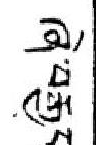ཞེ་བརྒྱད་
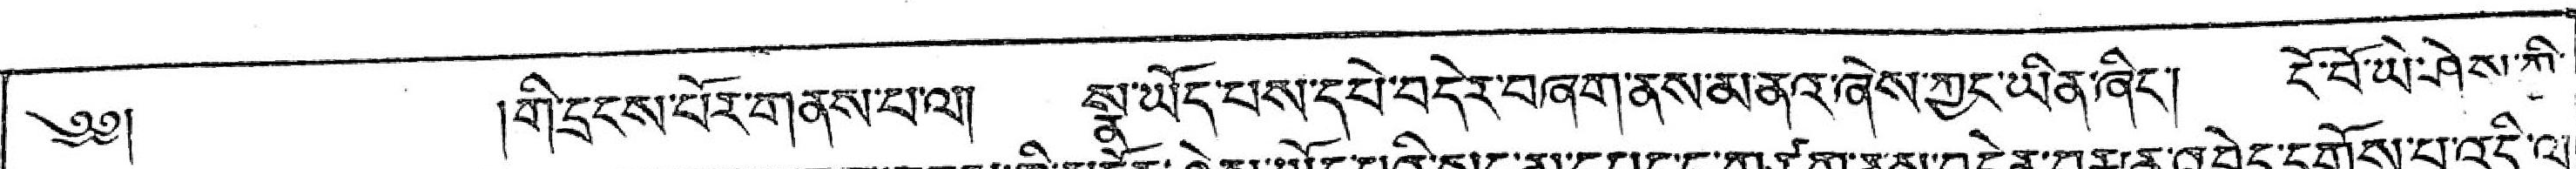༄༅།  །གི་དྲངས་པོར་གནས་པ་ལ། སྣ་ཡོད་པས་དཔེ་བདེར་བཞག་ནས་མནའ་ཞེས་ཀྱང་ཡིན་ཞིང་། ངོ་བོ་ཡེ་ཤེས་ཀྱི་
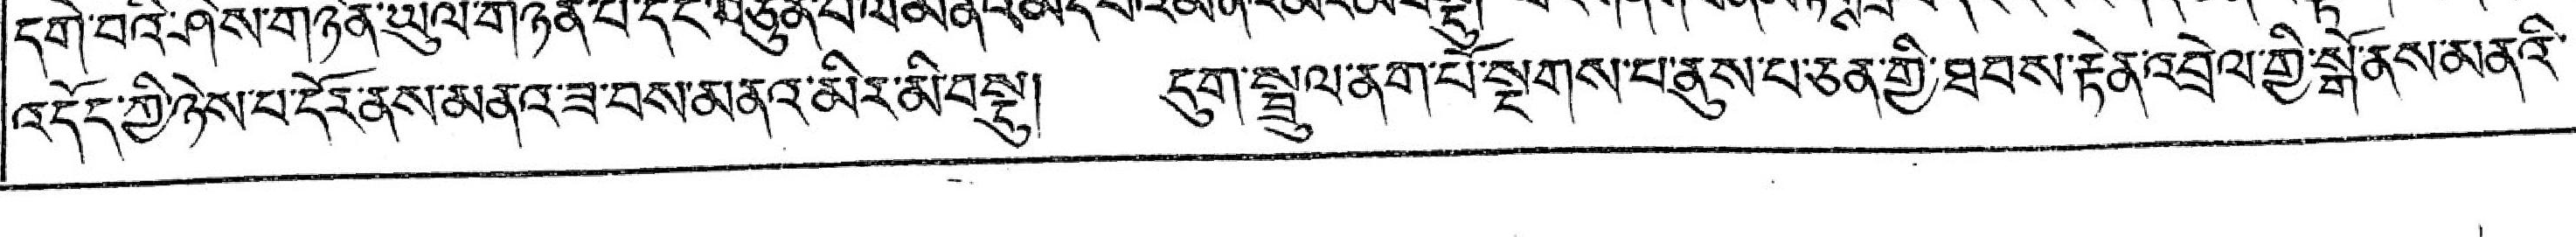འདོད་གྱི་ཉེས་པ་དོར་ནས་མནའ་ཟ་བས་མནའ་མིར་མི་བསྡུ། དུག་སྦྲུལ་ནག་པོ་སྔགས་པ་ནུས་པ་ཅན་གྱི་ཐབས་རྟེན་འབྲེལ་གྱི་སྒོ་ནས་མནའི་་
